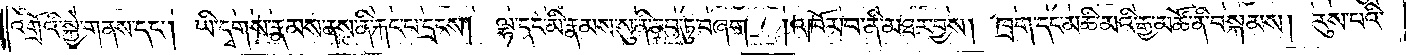འགྲོའི་སྐྱེ་གནས་དང༌། ཡི་དྭགས་རྣམས་ནས་ནི་རྐང་པ་དྲངས། ལྷ་དང་མི་རྣམས་སུ་ནི་རབ་ཏུ་བཞག །འཁོར་བ་ནི་མཐར་བྱས། ཁྲག་དང་མཆི་མའི་རྒྱ་མཚོ་ནི་བསྐམས། རུས་པའི་
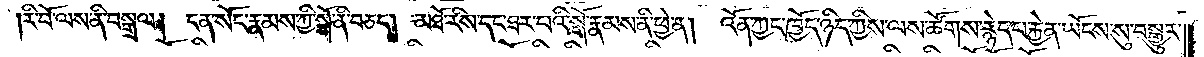།རི་བོ་ལས་ནི་བསྒྲལ། ངན་སོང་རྣམས་ཀྱི་སྒོ་ནི་བཅད། མཐོ་རིས་དང་ཐར་པའི་སྒོ་རྣམས་ནི་ཕྱེ་ན།   འོན་ཀྱང་ཁྱོད་ཉིད་ཀྱིས་ལས་ཚོགས་རྙེད་པ་རྐྱེན་ཡོངས་སུ་བསྒྱུར་
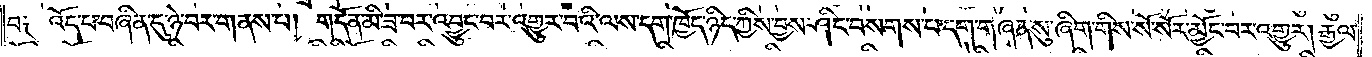བ༑ འོད་པ་བཞིན་དུ་ཉེ་བར་གནས་པ། གདོན་མི་ཟ་བར་འབྱུང་བར་འགྱུར་བའི་ལས་དག་ཁྱོད་ཉིད་ཀྱིས་བྱས་ཤིང་བསགས་པ་དག་གཞན་སུ་ཞིག་གིས་སོ་སོར་མྱོང་བར་འགྱུར། རྒྱལ་
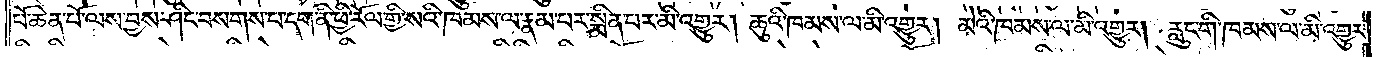པོ་ཆེན་པོ་ལས་བྱས་ཤིང་བསགས་པ་དག་ནི་ཕྱི་རོལ་གྱི་སའི་ཁམས་ལ་རྣམ་པར་སྨིན་པར་མི་འགྱུར། ཆུའི་ཁམས་ལ་མི་འགྱུར། མེའི་ཁམས་ལ་མི་འགྱུར། རླུང་གི་ཁམས་ལ་མི་འགྱུར་
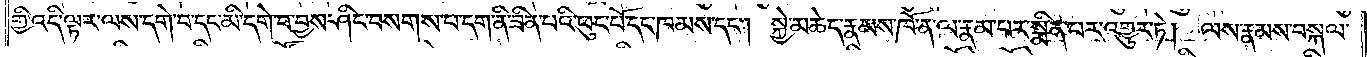གྱི་འདི་ལྟར་ལས་དགེ་བ་དང་མི་དགེ་བ་བྱས་ཤིང་བསགས་པ་དག་ནི་ཟིན་པའི་ཕུང་པོ་དང་ཁམས་དང༌། སྐྱེ་མཆེད་རྣམས་ཁོ་ན་ལ་རྣམ་པར་སྨིན་པར་འགྱུར་ཏེ། ལས་རྣམས་བསྐལ་
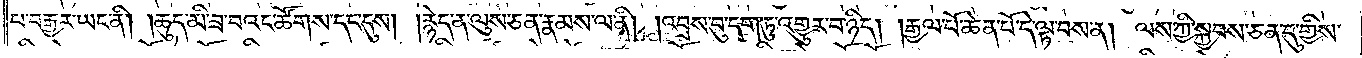པ་བརྒྱར་ཡང་ནི། །ཆུད་མི་ཟ་བའང་ཚོགས་དང་དུས། །རྙེད་ན་ལུས་ཅན་རྣམས་ལ་ནི། །འབྲས་བུ་དག་ཏུ་འགྱུར་བ་ཉིད། །རྒྱལ་པོ་ཆེན་པོ་དེ་ལྟ་བས་ན། ལས་ཀྱི་སྐྱབས་ཅན་དུ་གྱིས་
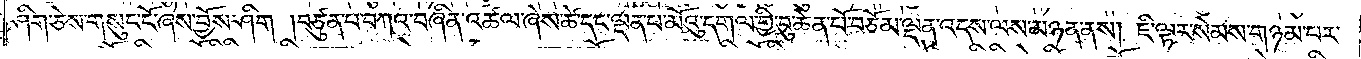ཤིག་ཅེས་གསུང་ངོ་ཞེས་བྱོས་ཤིག །བཙུན་པ་བཀའ་བཞིན་འཚལ་ཞེས་ཚེ་དང་ལྡན་པ་མོའུ་དགལ་གྱི་བུ་ཆེན་པོ་བཅོམ་ལྡན་འདས་ལས་མཉན་ནས། ཇི་ལྟར་སེམས་གཉམ་པར་
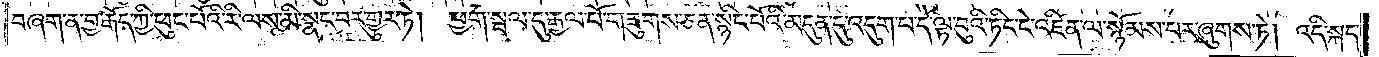བཞག་ན་བྱ་རྒོད་ཀྱི་ཕུང་པོའི་རི་ལས་མི་སྣང་བར་གྱུར་ཏེ། ཕྱག་སྦལ་དུ་རྒྱལ་པོ་གཟུགས་ཅན་སྙིང་པོའི་མདུན་དུ་འདུག་པ་དེ་ལྟ་བུའི་ཏིང་ངེ་འཛིན་ལ་སྙོམས་པར་ཞུགས་ཏེ། འདི་སྐད་
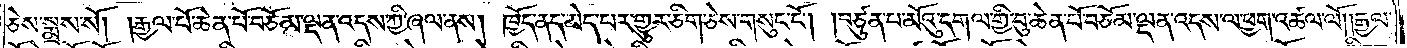ཅེས་སྨྲས་སོ། །རྒྱལ་པོ་ཆེན་པོ་བཅོམ་ལྡན་འདས་ཀྱི་ཞལ་ནས། ཁྱོད་ནད་མེད་པར་གྱུར་ཅིག་ཅེས་གསུང་ངོ༌། །བཙུན་པ་མོའུ་དགལ་གྱི་བུ་ཆེན་པོ་བཅོམ་ལྡན་འདས་ལ་ཕྱག་འཚལ་ལོ། །རྒྱལ་
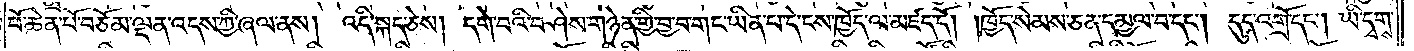པོ་ཆེན་པོ་བཅོམ་ལྡན་འདས་ཀྱི་ཞལ་ནས། འདི་སྐད་ཅེས། དགེ་བའི་བཤེས་གཉེན་གྱིས་བྱ་བ་གང་ཡིན་པ་དེ་ངས་ཁྱོད་ལ་མཛད་དོ། །ཁྱོད་སེམས་ཅན་དམྱལ་བ་དང༌། དུད་འགྲོ་དང༌། ཡི་དྭགས་
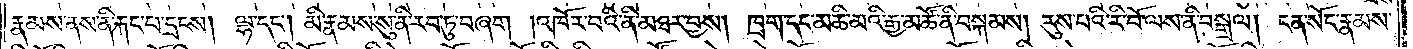རྣམས་ནས་ནི་རྐང་པ་དྲངས། ལྷ་དང༌། མི་རྣམས་སུ་ནི་རབ་ཏུ་བཞག །འཁོར་བའི་ནི་མཐར་བྱས། ཁྲག་དང་མཆི་མའི་རྒྱ་མཚོ་ནི་བསྐམས། རུས་པའི་རི་བོ་ལས་ནི་བསྒྲལ། ངན་སོང་རྣམས་
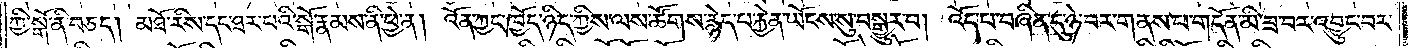ཀྱི་སྒོ་ནི་བཅད། མཐོ་རིས་དང་ཐར་པའི་སྒོ་རྣམས་ནི་ཕྱེ་ན། འོན་ཀྱང་ཁྱོད་ཉིད་ཀྱིས་ལས་ཚོགས་རྙེད་པ་རྐྱེན་ཡོངས་སུ་བསྒྱུར་བ། འོད་པ་བཞིན་དུ་ཉེ་བར་གནས་པ་གདོན་མི་ཟ་བར་འབྱུང་བར་
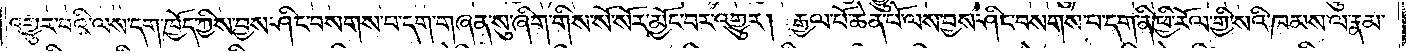འགྱུར་བའི་ལས་དག་ཁྱོད་ཀྱིས་བྱས་ཤིང་བསགས་པ་དག་གཞན་སུ་ཞིག་གིས་སོ་སོར་མྱོང་བར་འགྱུར། རྒྱལ་པོ་ཆེན་པོ་ལས་བྱས་ཤིང་བསགས་པ་དག་ནི་ཕྱི་རོལ་གྱི་སའི་ཁམས་ལ་རྣམ་
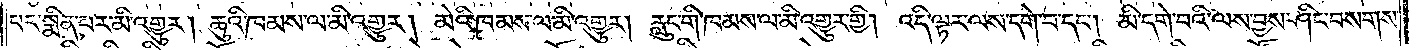པར་སྨིན་པར་མི་འགྱུར། ཆུའི་ཁམས་ལ་མི་འགྱུར། མེའི་ཁམས་ལ་མི་འགྱུར། རླུང་གི་ཁམས་ལ་མི་གྱུར་གྱི། འདི་ལྟར་ལས་དགེ་བ་དང༌། མི་དགེ་བའི་ལས་བྱས་ཤིང་བསགས་
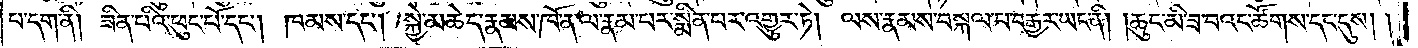པ་དག་ནི། ཟིན་པའི་ཕུང་པོ་དང༌། ཁམས་དང༌། སྐྱེ་མཆེད་རྣམས་ཁོ་ན་ལ་རྣམ་པར་སྨིན་པར་འགྱུར་ཏེ། ལས་རྣམས་བསྐལ་པ་བརྒྱར་ཡང་ནི། །ཆུད་མི་ཟ་བའང་ཚོགས་དང་དུས། །
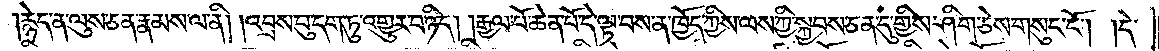།རྙེད་ན་ལུས་ཅན་རྣམས་ལ་ནི། །འབྲས་བུ་དག་ཏུ་འགྱུར་བ་ཉིད། །རྒྱལ་པོ་ཆེན་པོ་དེ་ལྟ་བས་ན་ཁྱོད་ཀྱིས་ལས་ཀྱི་སྐྱབས་ཅན་དུ་གྱིས་ཤིག་ཅེས་གསུང་ངོ༌། །དེ་
